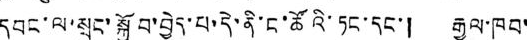དབང་ལ་སྲུང་སྐྱོབ་བྱེད་པ་དེ་ནི་ང་ཚོའི་ཏང་དང་། རྒྱལ་ཁབ་
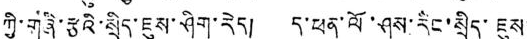ཀྱི་གཞི་རྩའི་སྲིད་ཇུས་ཤིག་རེད། ད་ཕན་ལོ་ཤས་རིང་སྲིད་ཇུས་
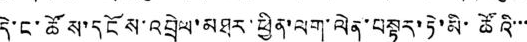དེ་ང་ཚོས་དངོས་འབྲེལ་མཐར་ཕྱིན་ལག་ལེན་བསྟར་ཏེ་མི་ཚོའི་་་
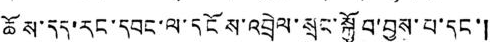ཆོས་དད་རང་དབང་ལ་དངོས་འབྲེལ་སྲུང་སྐྱོབ་བྱས་པ་དང་།
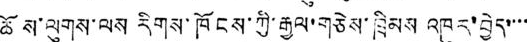ཆོས་ལུགས་ལས རིགས་ཁོངས་ཀྱི་རྒྱལ་གཅེས་ཁྲིམས འཁུར་བྱེད་་་་
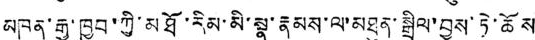མཁན་རྒྱ་ཁྱབ་ཀྱི་མཐོ་རིམ་མི་སྣ་རྣམས་ལ་མཐུན་སྒྲིལ་བྱས་ཏེ་ཆོས
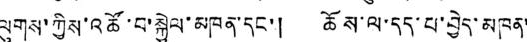ལུགས་ཀྱིས་འཚོ་བ་སྐྱེལ་མཁན་དང་། ཆོས་ལ་དད་པ་བྱེད་མཁན་
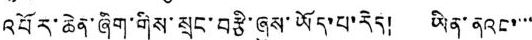འབོར་ཆེན་ཞིག་གིས་སྲུང་བརྩི་ཞུས་ཡོད་པ་རེད། ཡིན་ནའང་་་་
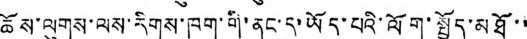ཆོས་ལུགས་ལས་རིགས་ཁག་གི་ནང་དུ་ཡོད་པའི་ལོག་སྤྱོད་མཐོ་་
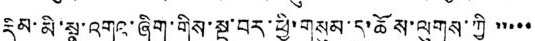རིམ་མེ་སྣ་འགའ་ཞིག་གིས་སྔ་བར་ཕྱི་གསུམ་དུ་ཆོས་ལུགས་ཀྱི་་་་་
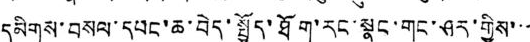དམིགས་བསལ་དཔང་ཆ་བེད་སྤྱོད་ཐོག་རང་སྣང་གང་ཤར་གྱིས་་་
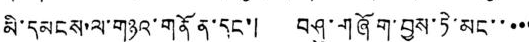མི་དམངས་ལ་གཉའ་གནོན་དང་། བཤུ་གཞོག་བྱས་ཏེ་མང་་་་་
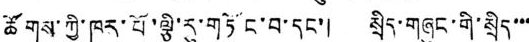ཚོགས་ཀྱི་ཁུར་པོ་ལྕི་རུ་གཏོང་བ་དང་། སྲིད་གཞུང་གི་སྲིད་་་
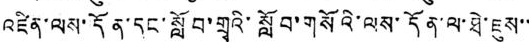འཛིན་ལས་དོན་དང་སློབ་གྲྭའི་སློབ་གསོའི་ལས་དོན་ལ་ཐེ་ཇུས་་
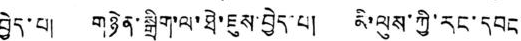བྱེད་པ། གཉེན་སྒྲིག་ལ་ཐེ་ཇུས་བྱེད་པ། མི་ལུས་ཀྱི་རང་དབང་
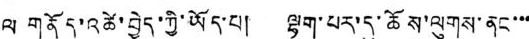ལ གནོད་འཚེ་བྱེད་ཀྱི་ཡོད་པ། ལྷག་པར་དུ་ཆོས་ལུགས་ནང་་་
